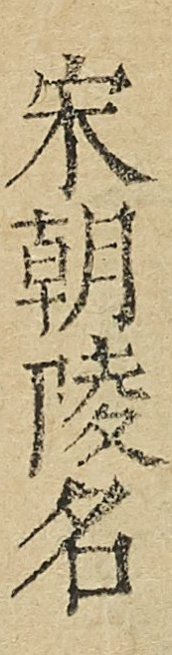宋朝陵名
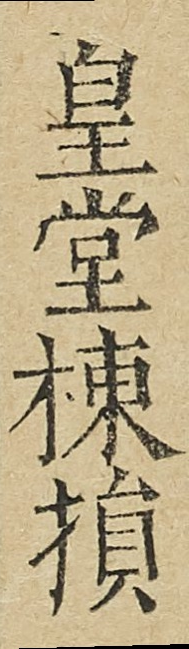皇堂棟損
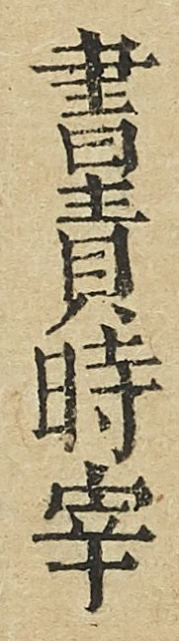書責時宰
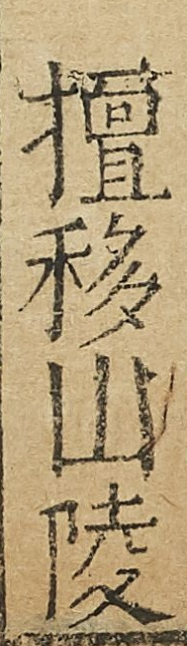擅移山陵
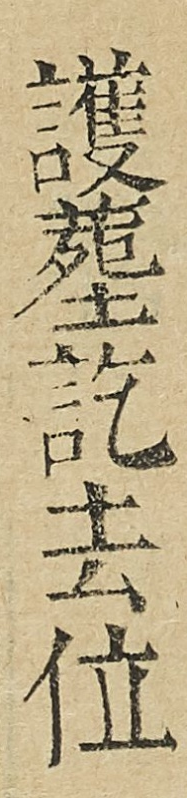䕶塟訖去位
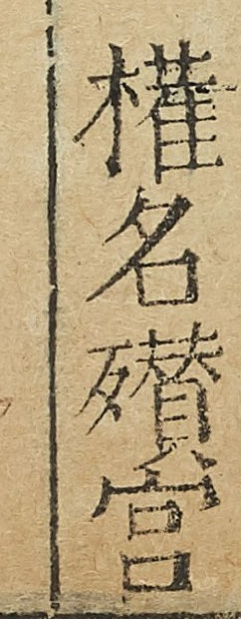權名欑宫
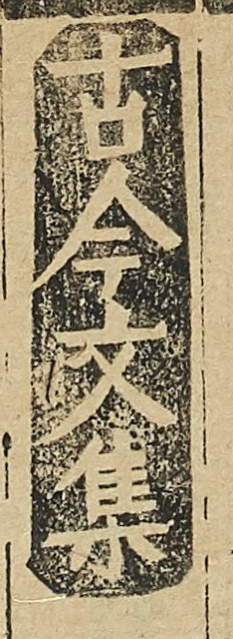古今文集
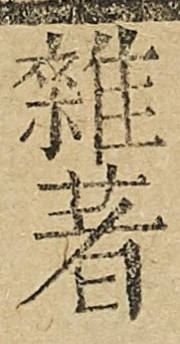雜著
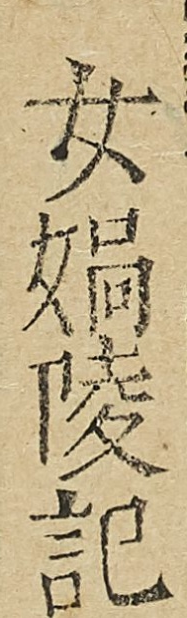女媧陵記
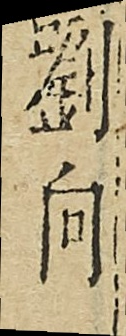劉向
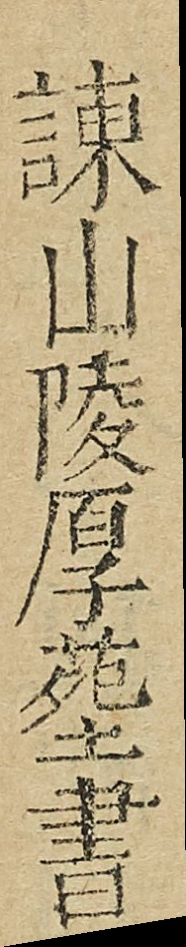諫山陵厚葬書
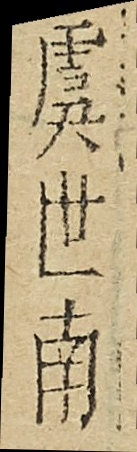虞世南
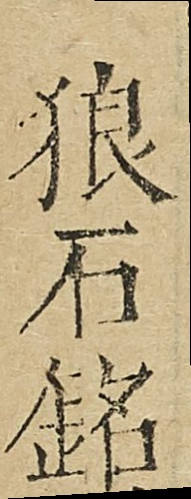狼石銘
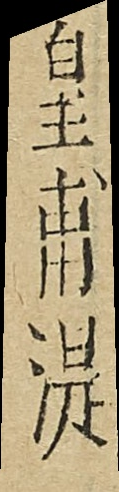皇甫湜
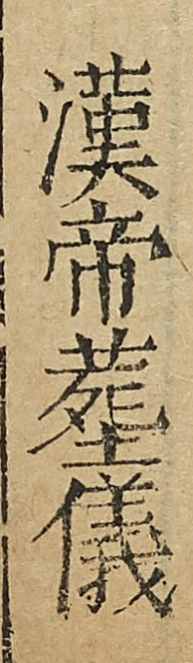漢帝塟儀
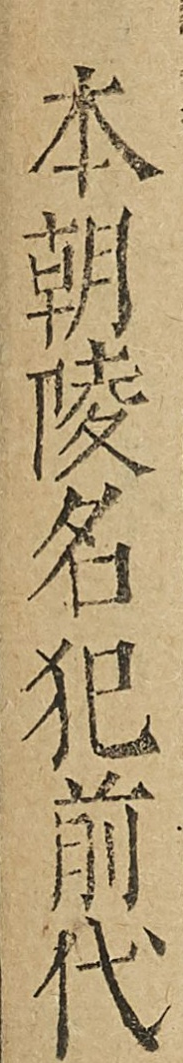本朝陵名犯前代
